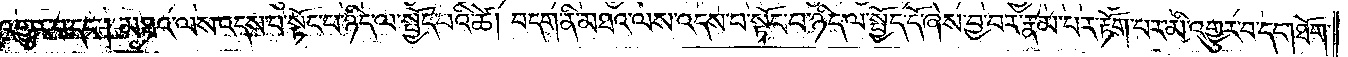འགྱུར་བ་དང༌། མཐའ་ལས་འདས་པ་སྟོང་པ་ཉིད་ལ་སྤྱོད་པའི་ཚེ། བདག་ནི་མཐའ་ལས་འདས་པ་སྟོང་པ་ཉིད་ལ་སྤྱོད་དོ་ཞེས་བྱ་བར་རྣམ་པར་རྟོག་པར་མི་འགྱུར་བ་དང༌། ཐོག་
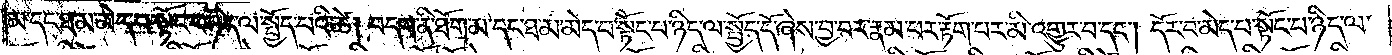མ་དང་ཐ་མ་མེད་པ་སྟོང་པ་ཉིད་ལ་སྤྱོད་པའི་ཚེ། བདག་ནི་ཐོག་མ་དང་ཐ་མ་མེད་པ་སྟོང་པ་ཉིད་ལ་སྤྱོད་དོ་ཞེས་བྱ་བར་རྣམ་པར་རྟོག་པར་མི་འགྱུར་བ་དང༌། དོར་བ་མེད་པ་སྟོང་པ་ཉིད་ལ་
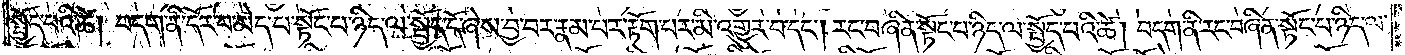སྤྱོད་པའི་ཚེ། བདག་ནི་དོར་བ་མེད་པ་སྟོང་པ་ཉིད་ལ་སྤྱོད་དོ་ཞེས་བྱ་བར་རྣམ་པར་རྟོག་པར་མི་འགྱུར་བ་དང༌། རང་བཞིན་སྟོང་པ་ཉིད་ལ་སྤྱོད་པའི་ཚེ། བདག་ནི་རང་བཞིན་སྟོང་པ་ཉིད་ལ་
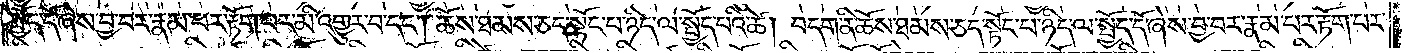སྤྱོད་དོ་ཞེས་བྱ་བར་རྣམ་པར་རྟོག་པར་མི་འགྱུར་བ་དང༌། ཆོས་ཐམས་ཅད་སྟོང་པ་ཉིད་ལ་སྤྱོད་པའི་ཚེ། བདག་ནི་ཆོས་ཐམས་ཅད་སྟོང་པ་ཉིད་ལ་སྤྱོད་དོ་ཞེས་བྱ་བར་རྣམ་པར་རྟོག་པར་
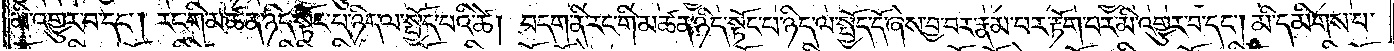མི་འགྱུར་བ་དང༌། རང་གི་མཚན་ཉིད་སྟོང་པ་ཉིད་ལ་སྤྱོད་པའི་ཚེ། བདག་ནི་རང་གི་མཚན་ཉིད་སྟོང་པ་ཉིད་ལ་སྤྱོད་དོ་ཞེས་བྱ་བར་རྣམ་པར་རྟོག་པར་མི་འགྱུར་བ་དང༌། མི་དམིགས་པ་
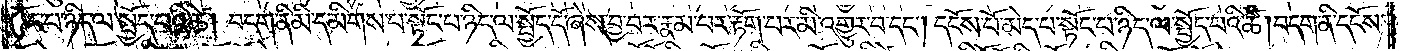སྟོང་པ་ཉིད་ལ་སྤྱོད་པའི་ཚེ། བདག་ནི་མི་དམིགས་པ་སྟོང་པ་ཉིད་ལ་སྤྱོད་དོ་ཞེས་བྱ་བར་རྣམ་པར་རྟོག་པར་མི་འགྱུར་བ་དང༌། དངོས་པོ་མེད་པ་སྟོང་པ་ཉིད་ལ་སྤྱོད་པའི་ཚེ། བདག་ནི་དངོས་
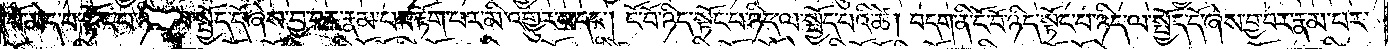པོ་མེད་པ་སྟོང་པ་ཉིད་ལ་སྤྱོད་དོ་ཞེས་བྱ་བར་རྣམ་པར་རྟོག་པར་མི་འགྱུར་བ་དང༌། ངོ་བོ་ཉིད་སྟོང་པ་ཉིད་ལ་སྤྱོད་པའི་ཚེ། བདག་ནི་ངོ་བོ་ཉིད་སྟོང་པ་ཉིད་ལ་སྤྱོད་དོ་ཞེས་བྱ་བར་རྣམ་པར་
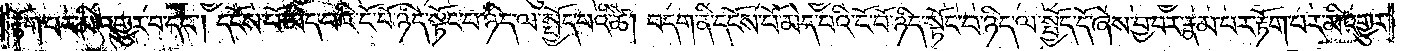རྟོག་པར་མི་འགྱུར་བ་དང༌། དངོས་པོ་མེད་པའི་ངོ་བོ་ཉིད་སྟོང་པ་ཉིད་ལ་སྤྱོད་པའི་ཚེ། བདག་ནི་དངོས་པོ་མེད་པའི་ངོ་བོ་ཉིད་སྟོང་པ་ཉིད་ལ་སྤྱོད་དོ་ཞེས་བྱ་བར་རྣམ་པར་རྟོག་པར་མི་འགྱུར་
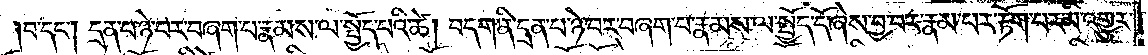བ་དང༌། དྲན་པ་ཉེ་བར་བཞག་པ་རྣམས་ལ་སྤྱོད་པའི་ཚེ། བདག་ནི་དྲན་པ་ཉེ་བར་བཞག་པ་རྣམས་ལ་སྤྱོད་དོ་ཞེས་བྱ་བར་རྣམ་པར་རྟོག་པར་མི་འགྱུར་
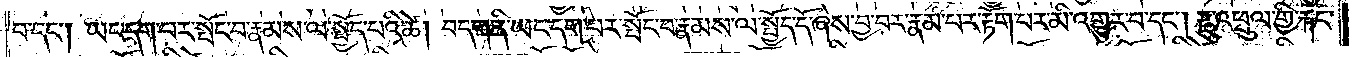བ་དང༌། ཡང་དག་པར་སྤོང་བ་རྣམས་ལ་སྤྱོད་པའི་ཚེ། བདག་ནི་ཡང་དག་པར་སྤོང་བ་རྣམས་ལ་སྤྱོད་དོ་ཞེས་བྱ་བར་རྣམ་པར་རྟོག་པར་མི་འགྱུར་བ་དང༌། རྫུ་འཕྲུལ་གྱི་རྐང་
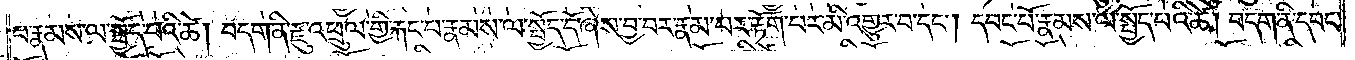པ་རྣམས་ལ་སྤྱོད་པའི་ཚེ། བདག་ནི་རྫུ་འཕྲུལ་གྱི་རྐང་པ་རྣམས་ལ་སྤྱོད་དོ་ཞེས་བྱ་བར་རྣམ་པར་རྟོག་པར་མི་འགྱུར་བ་དང༌། དབང་པོ་རྣམས་ལ་སྤྱོད་པའི་ཚེ། བདག་ནི་དབང་
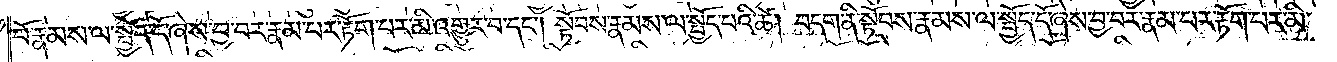པོ་རྣམས་ལ་སྤྱོད་དོ་ཞེས་བྱ་བར་རྣམ་པར་རྟོག་པར་མི་འགྱུར་བ་དང༌། སྟོབས་རྣམས་ལ་སྤྱོད་པའི་ཚེ། བདག་ནི་སྟོབས་རྣམས་ལ་སྤྱོད་དོ་ཞེས་བྱ་བར་རྣམ་པར་རྟོག་པར་མི་
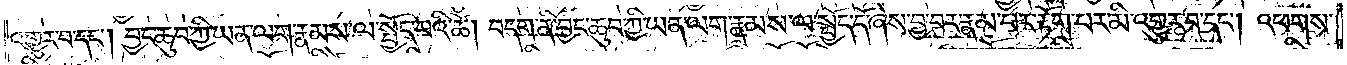འགྱུར་བ་དང༌། བྱང་ཆུབ་ཀྱི་ཡན་ལག་རྣམས་ལ་སྤྱོད་པའི་ཚེ། བདག་ནི་བྱང་ཆུབ་ཀྱི་ཡན་ལག་རྣམས་ལ་སྤྱོད་དོ་ཞེས་བྱ་བར་རྣམ་པར་རྟོག་པར་མི་འགྱུར་བ་དང༌། འཕགས་
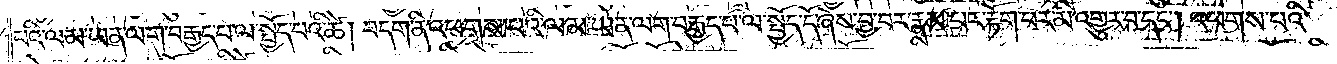པའི་ལམ་ཡན་ལག་བརྒྱད་པ་ལ་སྤྱོད་པའི་ཚེ། བདག་ནི་འཕགས་པའི་ལམ་ཡན་ལག་བརྒྱད་པ་ལ་སྤྱོད་དོ་ཞེས་བྱ་བར་རྣམ་པར་རྟོག་པར་མི་འགྱུར་བ་དང༌། འཕགས་པའི་
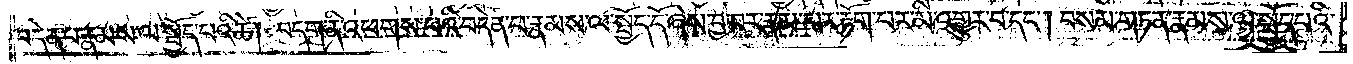བདེན་པ་རྣམས་ལ་སྤྱོད་པའི་ཚེ། བདག་ནི་འཕགས་པའི་བདེན་པ་རྣམས་ལ་སྤྱོད་དོ་ཞེས་བྱ་བར་རྣམ་པར་རྟོག་པར་མི་འགྱུར་བ་དང༌། བསམ་གཏན་རྣམས་ལ་སྤྱོད་པའི་
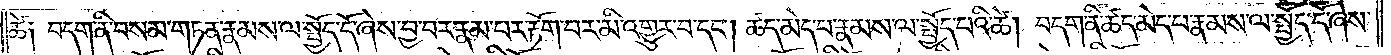ཚེ༑ བདག་ནི་བསམ་གཏན་རྣམས་ལ་སྤྱོད་དོ་ཞེས་བྱ་བར་རྣམ་པར་རྟོག་པར་མི་འགྱུར་བ་དང༌། ཚད་མེད་པ་རྣམས་ལ་སྤྱོད་པའི་ཚེ། བདག་ནི་ཚད་མེད་པ་རྣམས་ལ་སྤྱོད་དོ་ཞེས་
